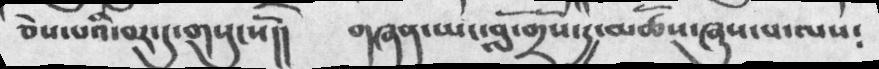ཅེས་པའི་བར་དུ་གསུངསོ།།      གཞན་ཡང་བློ་གྲོས་རྒྱ་མཚོས་ཞུས་པ་ལས༴
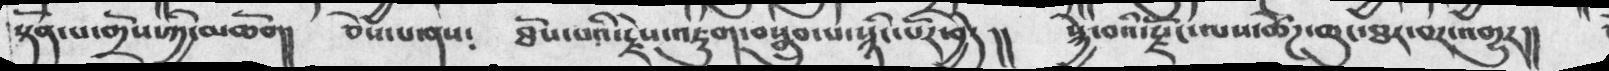སྟོན་པ་གྲོས་ཀྱི་མཆོག།    ཅེས་པ་ནས༴     ཐོས་པའི་རྗེས་འཇུག་བསྒྲུབ་པ་སྙིང་པོར་བྱེད།།    སྐྱེ་བའི་རྗོང་ལས་ཚོཌ་ཆུ་ཐར་བར་འགྱུར།།
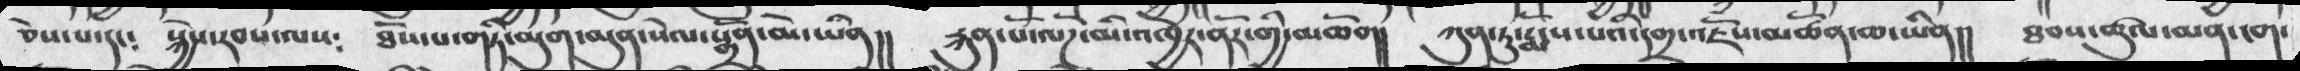ཅེས་པ་དང༴   སྐྱེས་རབ་ལས༴   ཐོས་པ་གཏི་མུག་མུན་སེལ་སྒྲོན་མེ་ཡིན།།  རྐུན་པོ་ལོཌ་མི་འཁྱེར་ནོར་གྱི་མཆོག།།   ཀུན་ཏུ་རྨོངས་པའི་དགྲ་འཇོས་མཚོན་ཆ་ཡིན།།   ཐབས་ཚུལ་མན་ངག་
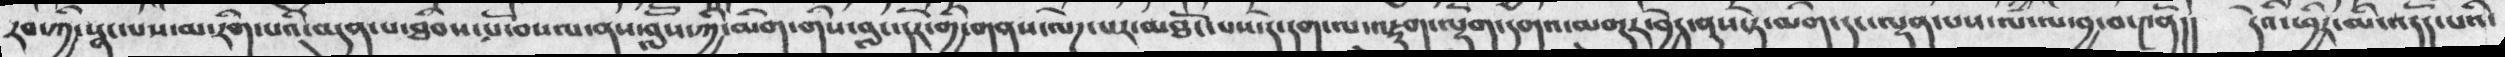རབ་ཀྱི་སྣང་པས་མ་རིག་པའི་མུན་པ་ཐིབསསས་པོ་བསལ་ནས་བློོས་ཀྱི་མིག་གིས་བླང་དོར་གྱི་གནས་ལེཌ་པར་མཐོང་པས་དེ་དག་ལ་འཇུག་ལྡོག་དགའ་མགུར་བྱེད་ནུས་ཏེ་མིག་དང་ལྡན་པས་ལ་ལ་བྱ་བ་༤ནོ།།   དེའི་ཕྱིར་མི་འདོད་པའི་
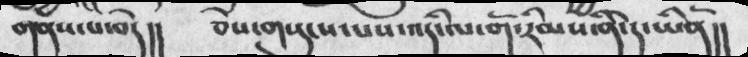གནས་པ་བདེ།།      ཅེས་གསུངས་པས་འདི་ལ་གོ་རིམས་ནི་དེ་ཡིནོ།།
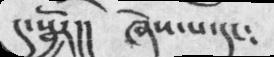དུ་སྦྱོར།།    ཞེས་པ་དང༴
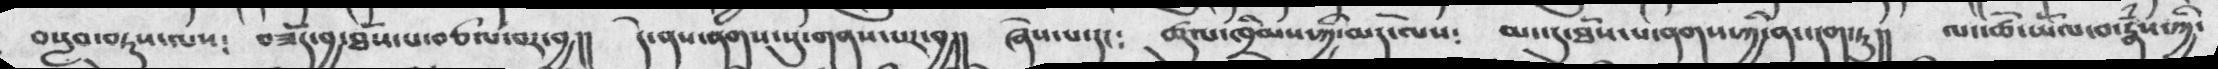བསླབ་བཏུས་ལས༴  བཟོད་བྱ་ཐོས་པ་བཙལ་བར་བྱ།།   དེ་ནས་ནགས་སུ་གནས་པར་བྱ།།  ཞེས་པ་དང༴  ཚུལ་ཁྲིམས་ཀྱི་མདོ་ལས༴   མང་དུ་ཐོས་པ་ནགས་ཀྱི་ནང་དག་ཏུ།།    ལང་ཚོ་ཡོལ་བ་རྣཾས་ཀྱི་
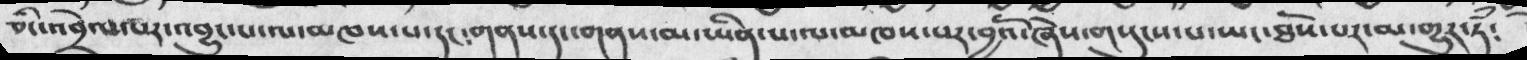ཅིང་འབྲེལ་པར་འབྱུང་པ་ལ་མཁས་པ་དང་གནས་དང་གནས་མ་ཡིན་པ་ལ་མཁས་པར་བྱའོ་ཞེས་གསུངས་པ་ཡང་ཐོས་པར་མ་གྱུར་རཾ༴
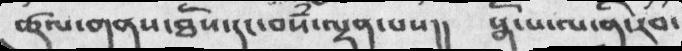ཚུལ་གནས་ཐོས་དང་བསཾ་ལྡན་པས།།     སྒོཾ་པ་ལ་ནི་རབ་
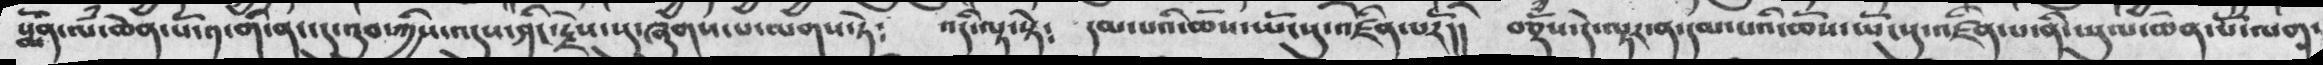སྨོན་ལཾ་ཆེན་པོ་༡་གི་ནང་དུ་འུབ་ཀྱིས་འདུས་ཤིང་རྗེས་སུ་ཞུགས་པ་ལགས་ཏེ༴   འདི་ལྟ་སྟེ༴    དམ་པའི་ཆོས་ཡོངསུ་འཛིན་པར།།   བཅྡོྃྃས་དེ་ལྟར་ན་དམ་པའི་ཆོས་ཡོངསུ་འཛིན་པ་ནི་ཡུལ་ཆེན་པོ་ལག་
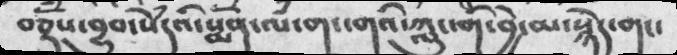བཅྡོྃྃས་བྱུབ་སེདྃའི་སྨོན་ལཾ་གང་གའི་ཀླུང་གི་བྱེ་མ་སྙེད་གང་
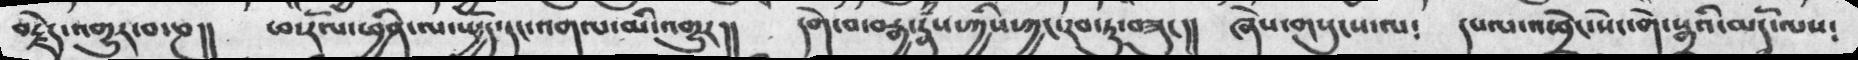བརྗེད་འགྱུར་བ་ཎ།།    ཕ་རོལ་ཕྱིན་ལ་ཡྱོད་དང་འགལ་མི་འགྱུར།།   དགེ་བ་བརྒྱ་རྣཾས་ཀྱིས་ཀྱང་རབ་ཏུ་བཟུང།།   ཞེས་གསུངས་ལ༴   དཔལ་འཕྲེང་སེང་གེ་སྒྲའི་མདོ་ལས༴
